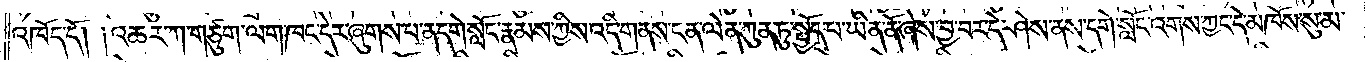འཁོད་དོ། །འཆར་ཀ་གཙུག་ལག་ཁང་དེར་ཞུགས་པ་ན་དགེ་སློང་རྣམས་ཀྱིས་འདི་གནས་ངན་ལེན་ཀུན་ཏུ་སྤྱོད་པ་ཡིན་ནོ་ཞེས་བྱ་བར་དེ་ཤེས་ནས་དགེ་སློང་འགས་ཀྱང་དེ་མཁོས་སུ་མ་
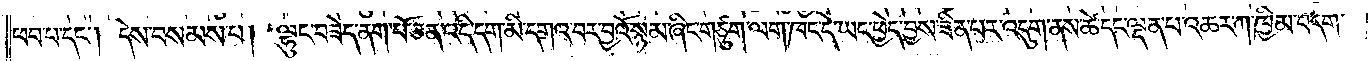ཕབ་པ་དང༌། དེས་བསམས་པ། ལྷུང་བཟེད་ནག་པོ་ཅན་འདི་དག་མི་དགའ་བར་བྱའོ་སྙམ་ཞིང་གཙུག་ལག་ཁང་དེ་ཡང་ཕྱེད་བྱས་ཟིན་པར་འདུག་ནས་ཚེ་དང་ལྡན་པ་འཆར་ཀ་ཁྱིམ་བདག་
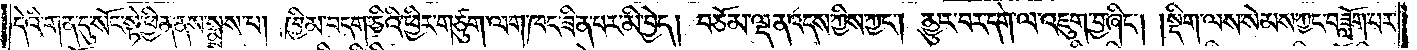དེའི་གན་དུ་སོང་སྟེ་ཕྱིན་ནས་སྨྲས་པ། ཁྱིམ་བདག་ཅིའི་ཕྱིར་གཙུག་ལག་ཁང་ཟིན་པར་མི་བྱེད། བཅོམ་ལྡན་འདས་ཀྱིས་ཀྱང༌། མྱུར་བར་དག་ལ་འཇུག་བྱ་ཞིང༌། །སྡིག་ལས་སེམས་ཀྱང་བཟློག་པར་
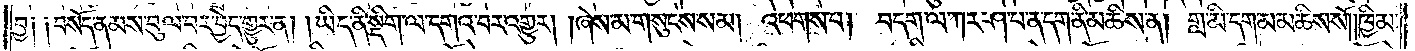བྱ༑ ༑བསོད་ནམས་བུལ་བར་བྱེད་གྱུར་ན། །ཡིད་ནི་སྡིག་ལ་དགའ་བར་འགྱུར། །ཞེས་མ་གསུངས་སམ། འཕགས་པ། བདག་ལ་ཀར་ཤ་པ་ན་དག་ནི་མཆིས་ན། གླ་མི་དག་མ་མཆིས་སོ། །ཁྱིམ་
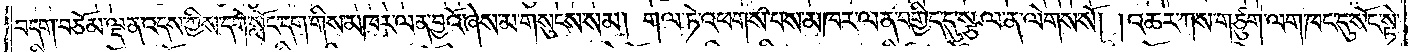བདག་བཅོམ་ལྡན་འདས་ཀྱིས་དགེ་སློང་དག་གིས་མཁར་ལན་བྱའོ་ཞེས་མ་གསུངས་སམ། གལ་ཏེ་འཕགས་པས་མཁར་ལན་བགྱིད་དུ་སྩལ་ན་ལེགས་སོ། །འཆར་ཀས་གཙུག་ལག་ཁང་དུ་སོང་སྟེ་
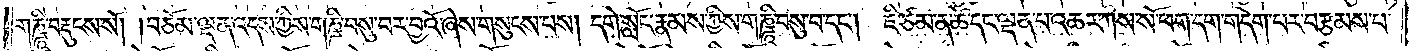གཎྜཱི་བརྡུངས་སོ། །བཅོམ་ལྡན་འདས་ཀྱིས་གཎྜི་བསུ་བར་བྱའོ་ཞེས་གསུངས་པས། དགེ་སློང་རྣམས་ཀྱིས་གཎྜཱི་བསུ་བ་དང༌། ཇི་ཙམ་ན་ཚེ་དང་ལྡན་པ་འཆར་ཀས་སོ་ཕག་དག་གདེག་པར་བརྩམས་པ་
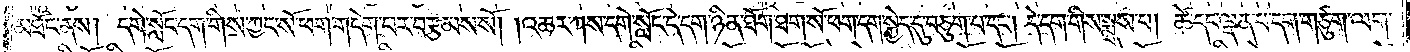མཐོང་ནས། དགེ་སློང་དག་གིས་ཀྱང་སོ་ཕག་གདེག་པར་བརྩམས་སོ། །འཆར་ཀས་དགེ་སློང་དེ་དག་ཉིན་ཐོག་ཐག་སོ་ཕག་དག་སྐྱེད་དུ་བཅུག་པ་དང༌། དེ་དག་གིས་སྨྲས་པ། ཚེ་དང་ལྡན་པ་དག་གཙུག་ལག་
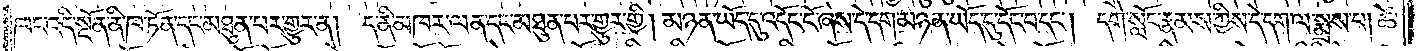ཁང་འདི་སྔོན་ནི་ཁ་ཏོན་དང་མཐུན་པར་གྱུར་ན། ད་ནི་མཁར་ལན་དང་མཐུན་པར་གྱུར་གྱི། མཉན་ཡོད་དུ་འདོང་ངོ་ཞེས་དེ་དག་མཉན་ཡོད་དུ་དོང་བ་དང༌། དགེ་སློང་རྣམས་ཀྱིས་དེ་དག་ལ་སྨྲས་པ། ཚེ་
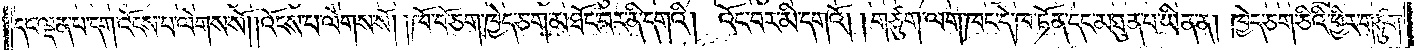དང་ལྡན་པ་དག་འོངས་པ་ལེགས་སོ། །འོངས་པ་ལེགས་སོ། །ཁོ་བོ་ཅག་ཁྱེད་ཅག་མཐོང་བར་ནི་དགའི། འོང་བར་མི་དགའོ། །གཙུག་ལག་ཁང་དེ་ཁ་ཏོན་དང་མཐུན་པ་ཡིན་ན། ཁྱེད་ཅག་ཅིའི་ཕྱིར་གཙུག་
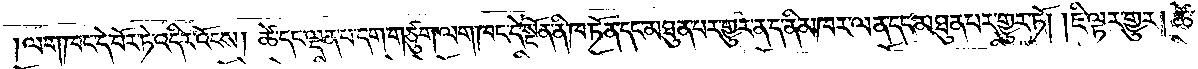ལག་ཁང་དེ་བོར་ཏེ་འདིར་འོངས། ཚེ་དང་ལྡན་པ་དག་གཙུག་ལག་ཁང་དེ་སྔོན་ནི་ཁ་ཏོན་དང་མཐུན་པར་གྱུར་ན་ད་ནི་མཁར་ལན་དང་མཐུན་པར་གྱུར་ཏོ། །ཇི་ལྟར་གྱུར། ཚེ་
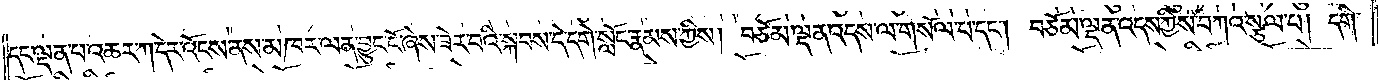དང་ལྡན་པ་འཆར་ཀ་དེར་འོངས་ནས་མཁར་ལན་བྱུང་ངོ་ཞེས་ཟེར་བའི་སྐབས་དེ་དགེ་སློང་རྣམས་ཀྱིས། བཅོམ་ལྡན་འདས་ལ་གསོལ་པ་དང༌། བཅོམ་ལྡན་འདས་ཀྱིས་བཀའ་སྩལ་པ། དགེ་
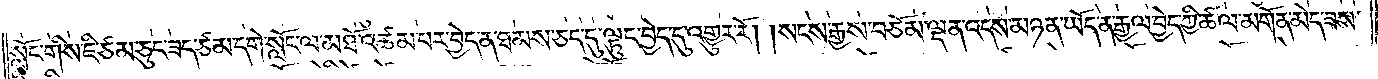སློང་གིས་ཇི་ཙམ་ཅུང་ཟད་ཙམ་དགེ་སློང་ལ་མཐོ་འཚམ་པར་བྱེད་ན་ཐམས་ཅད་དུ་ལྟུང་བྱེད་དུ་འགྱུར་རོ། །སངས་རྒྱས་བཅོམ་ལྡན་འདས་མཉན་ཡོད་ན་རྒྱལ་བྱེད་ཀྱི་ཚལ་མགོན་མེད་ཟས་
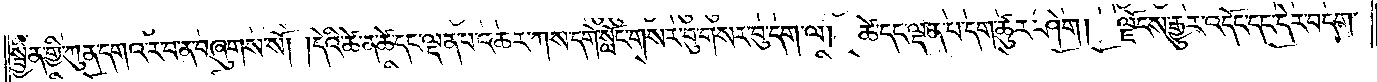སྦྱིན་གྱི་ཀུན་དགའ་ར་བ་ན་བཞུགས་སོ། །དེའི་ཚེ་ན་ཚེ་དང་ལྡན་པ་འཆར་ཀས་དགེ་སློང་གསར་བུ་གསར་བུ་དག་ལ། ཚེ་དང་ལྡན་པ་དག་ཚུར་ཤེག །ལྗོངས་རྒྱུར་འདོང་དང་དེར་བདག་
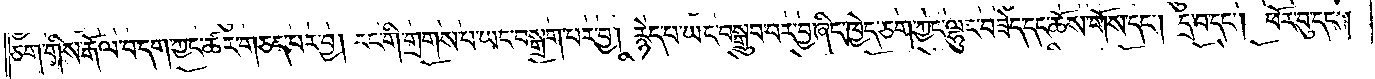ཅག་གིས་རྒོལ་བ་དག་ཀྱང་ཚར་གཅད་པར་བྱ། རང་གི་གྲགས་པ་ཡང་བསྒྲག་པར་བྱ། རྙེད་པ་ཡང་བསྒྲུབ་པར་བྱ་ཞིང་ཁྱེད་ཅག་ཀྱང་ལྷུང་བཟེད་དང་ཆོས་གོས་དང༌། དྲ་བ་དང༌། ཕོར་བུ་དང༌།
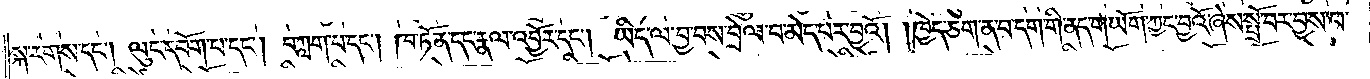སྐ་རགས་དང༌། ལུང་དབོག་པ་དང༌། བཀླག་པ་དང༌། ཁ་ཏོན་དང་རྣལ་འབྱོར་དང༌། ཡིད་ལ་བྱ་བས་བྲེལ་བ་མེད་པར་བྱའོ། །ཁྱེད་ཅག་ན་བ་དག་གི་ནད་གཡོག་ཀྱང་བྱའོ་ཞེས་སྤྲོ་བར་བྱས་པ་
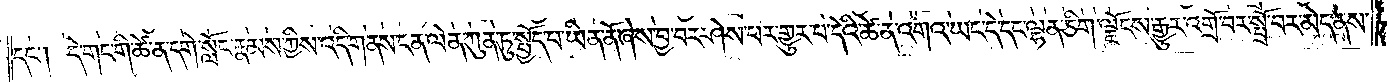དང༌། དེ་གང་གི་ཚེ་ན་དགེ་སློང་རྣམས་ཀྱིས་འདི་གནས་ངན་ལེན་ཀུན་ཏུ་སྤྱོད་པ་ཡིན་ནོ་ཞེས་བྱ་བར་ཤེས་པར་གྱུར་པ་དེའི་ཚེ་ན་འགའ་ཡང་དེ་དང་ལྷན་ཅིག་ལྗོངས་རྒྱུར་འགྲོ་བར་སྤྲོ་བར་མེད་ནས་
